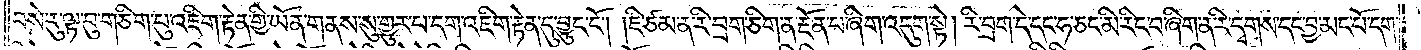བསེ་རུ་ལྟ་བུ་གཅིག་པུ་འཇིག་རྟེན་གྱི་ཡོན་གནས་སུ་གྱུར་པ་དག་འཇིག་རྟེན་དུ་བྱུང་ངོ༌། །ཇི་ཙམ་ན་རི་བྲག་ཅིག་ན་རྔོན་པ་ཞིག་འདུག་སྟེ། རི་བྲག་དེ་དང་ཧ་ཅང་མི་རིང་བ་ཞིག་ན་རི་དྭགས་དང་བྱ་མང་པོ་དག་
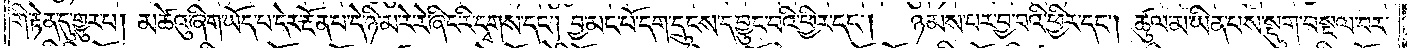གི་རྟེན་དུ་གྱུར་པ། མཚེའུ་ཞིག་ཡོད་པ་དེར་རྔོན་པ་དེ་ཉི་མ་རེ་རེ་ཞིང་རི་དྭགས་དང༌། བྱ་མང་པོ་དག་དྲུངས་དབྱུང་བའི་ཕྱིར་དང༌། ཉམས་པར་བྱ་བའི་ཕྱིར་དང༌། ཚུལ་མ་ཡིན་པས་སྡུག་བསྔལ་བར་
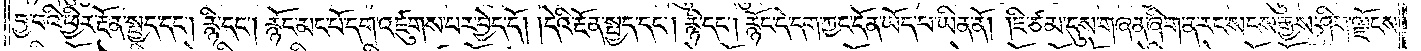བྱ་བའི་ཕྱིར་རྔོན་སྤྱད་དང༌། རྙི་དང༌། རྙོང་མང་པོ་དག་འཛུགས་པར་བྱེད་དོ། །དེའི་རྔོན་སྤྱད་དང༌། རྙི་དང༌། རྙོང་དེ་དག་ཀྱང་དོན་ཡོད་པ་ཡིན་ནོ། །ཇི་ཙམ་དུས་གཞན་ཞིག་ན་རང་སངས་རྒྱས་ཤིག་ལྗོངས་
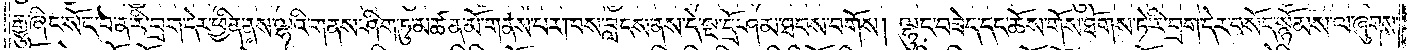རྒྱུ་ཞིང་སོང་བ་ན་རི་བྲག་དེར་ཕྱིན་ནས་ལྷའི་གནས་ཤིག་ཏུ་མཚན་མོ་གནས་པར་ཁས་བླངས་ནས་དེ་སྔ་དྲོ་ཤམ་ཐབས་བགོས། ལྷུང་བཟེད་དང་ཆོས་གོས་ཐོགས་ཏེ་རི་བྲག་དེར་བསོད་སྙོམས་ལ་ཞུགས་
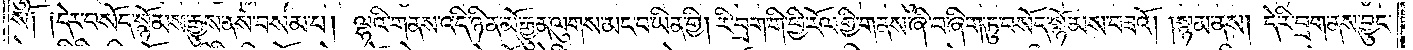སོ༑ ༑དེར་བསོད་སྙོམས་རྒྱུས་ནས་བསམ་པ། ལྷའི་གནས་འདི་ཉིན་མོ་རྒྱུན་ལུགས་མང་བ་ཡིན་གྱི། རི་བྲག་གི་ཕྱི་རོལ་གྱི་གནས་ཞི་བ་ཞིག་ཏུ་བསོད་སྙོམས་བཟའོ། །སྙམ་ནས། དེ་རི་བྲག་ནས་བྱུང་
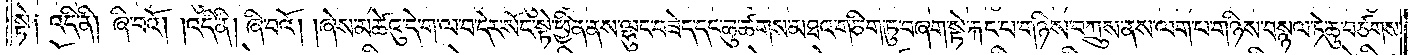སྟེ༑ འདི་ནི། ཞི་བའོ། །འདི་ནི། ཞི་བའོ། །ཞེས་མཚེའུ་དེ་ག་ལ་བ་དེར་སོང་སྟེ་ཕྱིན་ནས་ལྷུང་བཟེད་དང་ཆུ་ཚགས་མཐའ་གཅིག་ཏུ་བཞག་སྟེ་རྐང་པ་གཉིས་བཀྲུས་ནས་ལག་པ་གཉིས་བསྙལ་ཏེ་ཚུ་བཙགས་
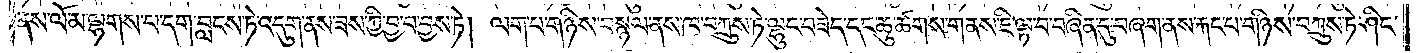ནས་ལོ་མ་ལྷགས་པ་དག་བླངས་ཏེ་འདུག་ནས་ཟས་ཀྱི་བྱ་བ་བྱས་ཏེ། ལག་པ་གཉིས་བསྙལ་ནས་ཁ་བཀྲུས་ཏེ་ལྷུང་བཟེད་དང་ཆུ་ཚགས་གནས་ཇི་ལྟ་བ་བཞིན་དུ་བཞག་ནས་རྐང་པ་གཉིས་བཀྲུས་ཏེ་ཤིང་
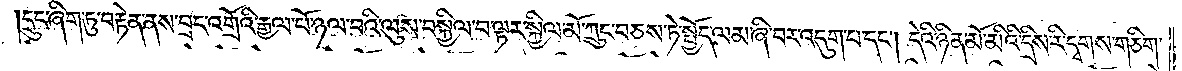དྲུང་ཞིག་ཏུ་བརྟེན་ནས་བྲང་འགྲོའི་རྒྱལ་པོ་ཉལ་བའི་ལུས་བསྐྱིལ་བ་ལྟར་སྐྱིལ་མོ་ཀྲུང་བཅས་ཏེ་སྤྱོད་ལམ་ཞི་བར་འདུག་པ་དང༌། དེའི་ཉིན་མོ་མིའི་དྲིས་རི་དྭགས་གཅིག་
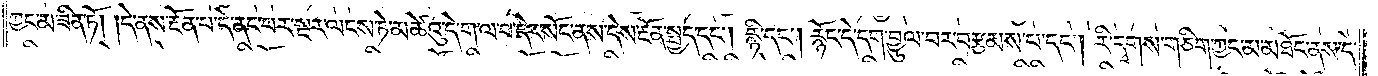ཀྱང་མ་ཟིན་ཏོ། །དེ་ནས་རྔོན་པ་དེ་ནང་པར་སྔར་ལངས་ཏེ་མཚེའུ་དེ་ག་ལ་བ་དེར་སོང་ནས་དེས་རྔོན་སྤྱད་དང༌། རྙི་དང༌། རྙོང་དེ་དག་བྱུལ་བར་བརྩམས་པ་དང༌། རི་དྭགས་གཅིག་ཀྱང་མ་མཐོང་ནས་དེ་
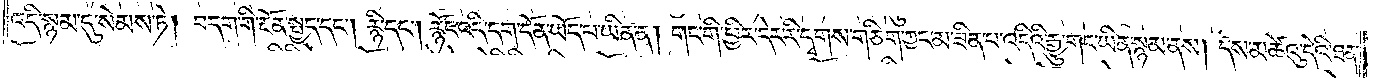འདི་སྙམ་དུ་སེམས་ཏེ། བདག་གི་རྔོན་སྤྱད་དང༌། རྙི་དང༌། རྙོང་འདི་དག་དོན་ཡོད་པ་ཡིན་ན། གང་གི་ཕྱིར་དེར་རི་དྭགས་གཅིག་ཀྱང་མ་ཟིན་པ་འདིའི་རྒྱུ་གང་ཡིན་སྙམ་ནས། དེས་མཚེའུ་དེའི་ཐན་
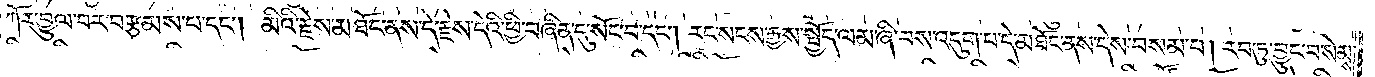ཀོར་བྱུལ་བར་བརྩམས་པ་དང༌། མིའི་རྗེས་མཐོང་ནས་དེ་རྗེས་དེའི་ཕྱི་བཞིན་དུ་སོང་བ་དང༌། རང་སངས་རྒྱས་སྤྱོད་ལམ་ཞི་བས་འདུག་པ་དེ་མཐོང་ནས་དེས་བསམ་པ། རབ་ཏུ་བྱུང་བ་སེམས་
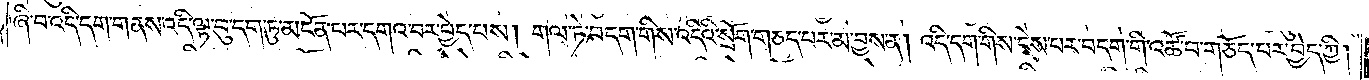ཞི་བ་འདི་དག་གནས་འདི་ལྟ་བུ་དག་ཏུ་མངོན་པར་དགའ་བར་བྱེད་པས། གལ་ཏེ་བདག་གིས་འདིའི་སྲོག་གཅད་པར་མ་བྱས་ན། འདི་དག་གིས་ངེས་པར་བདག་གི་འཚོ་བ་གཅོད་པར་བྱེད་ཀྱི།
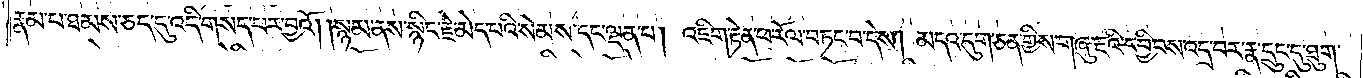རྣམ་པ་ཐམས་ཅད་དུ་འདི་གསད་པར་བྱའོ། །སྙམ་ནས་སྙིང་རྗེ་མེད་པའི་སེམས་དང་ལྡན་པ། འཇིག་རྟེན་ཕ་རོལ་བཏང་བ་དེས། མདའ་དུག་ཅན་གྱིས་གཞུ་རྔའི་དབྱིབས་འདྲ་བར་རྣ་དྲུང་དུ་ཐུག་
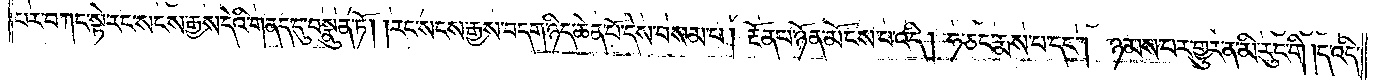པར་བཀང་སྟེ་རང་སངས་རྒྱས་དེའི་གནད་དུ་བསྣུན་ཏོ། །རང་སངས་རྒྱས་བདག་ཉིད་ཆེན་པོ་དེས་བསམ་པ། རྔོན་པ་ཉོན་མོངས་པ་འདི། ཧ་ཅང་རྨས་པ་དང༌། ཉམས་པར་གྱུར་ན་མི་རུང་གི །ད་འདི་
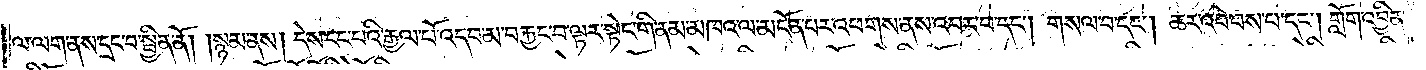ལ་ལག་ནས་དྲང་བ་སྦྱིན་ནོ། །སྙམ་ནས། དེས་ངང་པའི་རྒྱལ་པོ་འདབ་མ་བརྐྱང་བ་ལྟར་སྟེང་གི་ནམ་མཁའ་ལ་མངོན་པར་འཕགས་ནས་འབར་བ་དང༌། གསལ་བ་དང༌། ཆར་འབེབས་པ་དང༌། གློག་འབྱིན་
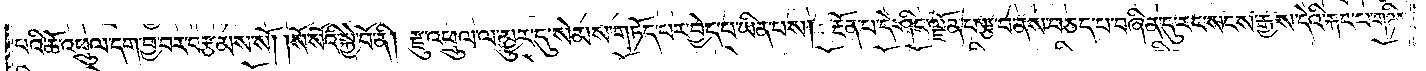པའི་ཆོ་འཕྲུལ་དག་བྱ་བར་བརྩམས་སོ། །སོ་སོའི་སྐྱེ་བོ་ནི། རྫུ་འཕྲུལ་ལ་མྱུར་དུ་སེམས་གཏོད་པར་བྱེད་པ་ཡིན་པས། རྔོན་པ་དེ་ཤིང་ལྗོན་པ་རྩ་བ་ནས་བཅད་པ་བཞིན་དུ་རང་སངས་རྒྱས་དེའི་རྐང་པ་གཉིས་
